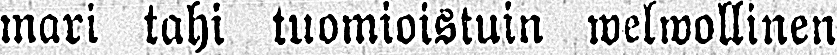mari tahi tuomioistuin welwollinen
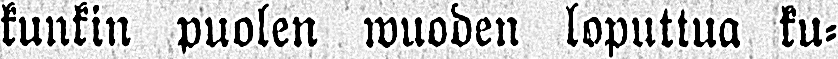kunkin puolen wuoden loputtua ku-
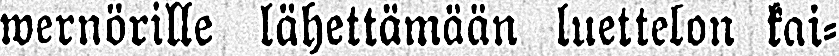wernörille lähettämään luettelon kai-
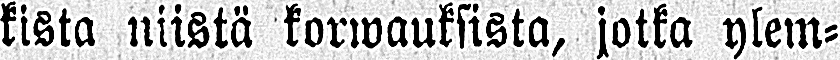kista niistä korwauksista, jotka ylem-
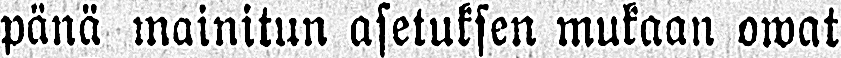pänä mainitun asetuksen mukaan owat
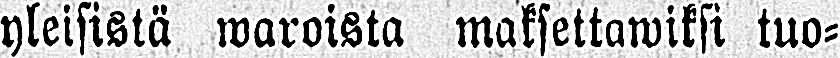yleisistä waroista maksettawiksi tuo-
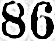86
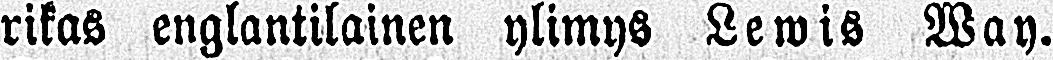rikas englantilainen ylimys Lewis Way.
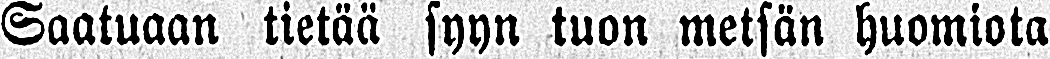Saatuaan tietää syyn tuon metsän huomiota
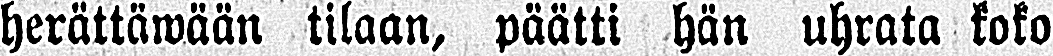herättäwään tilaan, päätti hän uhrata koko
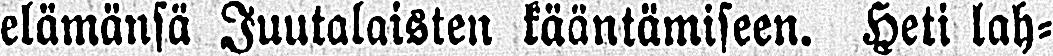elämänsä Juutalaisten kääntämiseen. Heti lah-
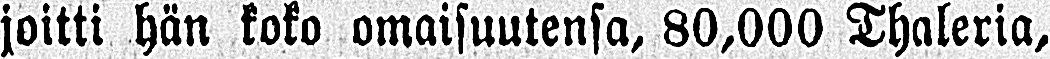joitti hän koko omaisuutensa, 80,000 Thaleria,
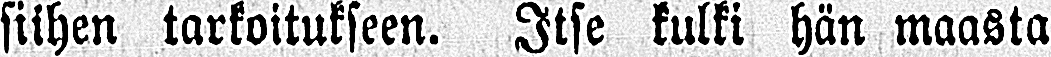siihen tarkoitukseen. Itse kulki hän maasta
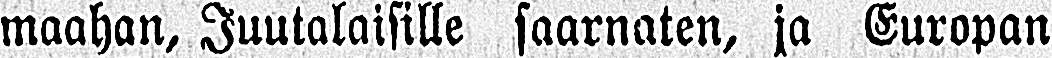maahan. Juutalaisille saarnaten, ja Europan
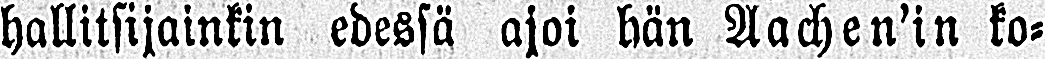hallitsijoinkin edessä ajoi hän Aachen’in ko-
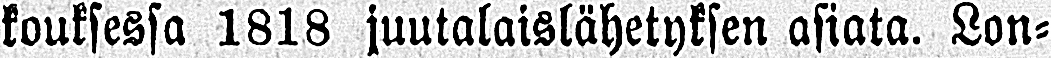kouksessa 1818 juutalaislähetyksen asiata. Lon-
